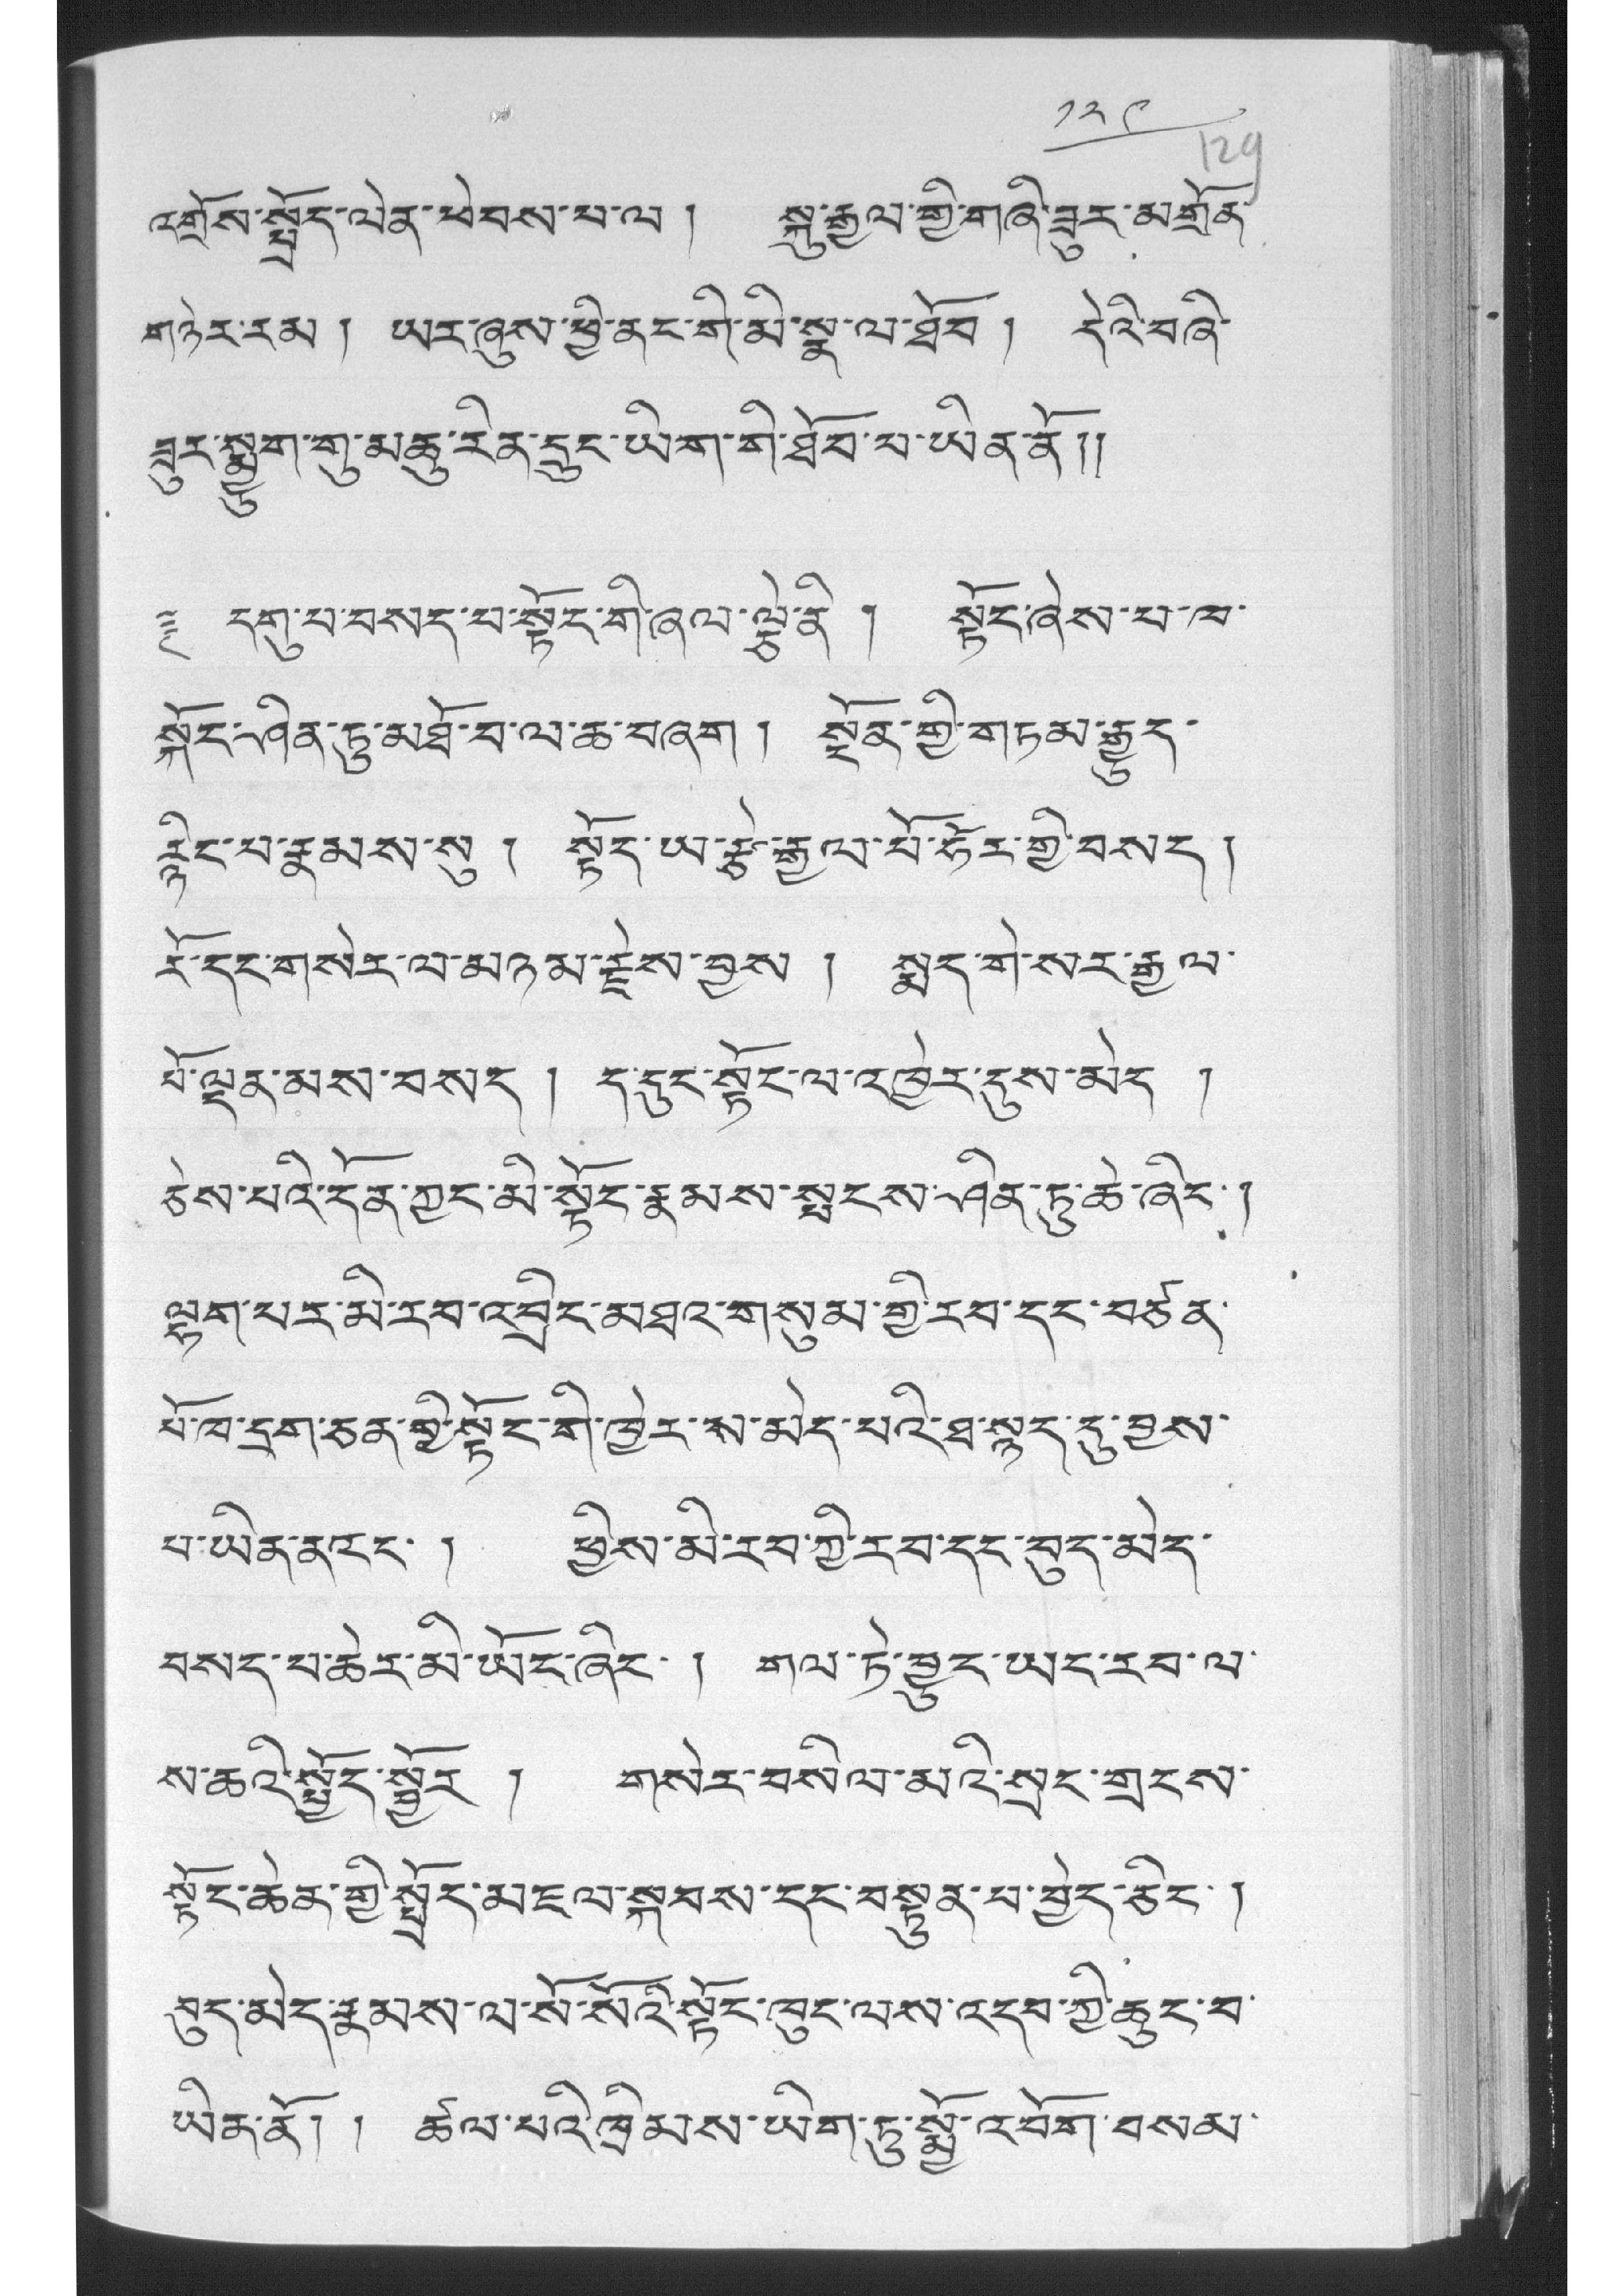༡༢༩
འགྲོས་སྤྲོད་ལེན་ཕེབས་པ་ལ ། སྐུ་རྒྱལ་གྱི་གཞི་ཟུར་མགྲོན་
གཉེར་རམ ། ཡར་ཞུས་ཕྱི་ནང་གི་མི་སྣ་ལ་ཐོབ ། དེའི་བཞི་
ཟུར་སྨྱུག་གུ་མཆུ་རིན་དྲུང་ཡིག་གི་ཐོབ་པ་ཡིན་ནོ།།
༈ དགུ་པ་བསད་པ་སྟོང་གི་ཞལ་ལྕེ་ནི ། སྟོང་ཞེས་པ་ཁ་
སྐོང་ཤིན་ཏུ་མཐོ་བ་ལ་ཆ་བཞག ། སྔོན་གྱི་གཏམ་རྒྱུད་
རྙིང་པ་རྣམས་སུ ། སྟོད་ཡ་རྩ་རྒྱལ་པོ་ཧོར་གྱི་བསད །
རོ་དང་གསེར་ལ་མཉམ་རྗེས་བྱས ། སྨད་གེ་སར་རྒྱལ་
པོ་ལྡན་མས་བསད ། ད་དུང་སྟོང་ལ་འཁྱེར་དུས་མེད །
ཅེས་པའི་དོན་ཀྱང་མི་སྟོང་རྣམས་སྤངས་ཤིན་ཏུ་ཆེ་ཞིང་།
ལྷག་པར་མི་རབ་འབྲིང་མཐའ་གསུམ་གྱི་རབ་དང་བཙན་
པོ་ཁ་དྲག་ཅན་གྱི་སྟོང་གི་ཁྱེར་ས་མེད་པའི་ཐ་སྙད་དུ་བྱས་
པ་ཡིན་ནའང་ ། ཕྱིས་མི་རབ་ཀྱི་རབ་དང་བུད་མེད་
བསད་པ་ཆེར་མེ་ཡོང་ཞིང་ ། གལ་ཏེ་བྱུང་ཡང་རབ་ལ་
ས་ཆའི་སྤྱོད་སྦྱོར ། གསེར་བསིལ་མའི་སྲང་གྲངས་
སྟོང་ཆེན་གྱི་སྤྲོད་མཇལ་སྐབས་དང་བསྟུན་པ་བྱེད་ཅིང་ །
བུད་མེད་རྣམས་ལ་སོ་སོའི་སྟོང་ཁུང་ལས་འདབ་ཀྱི་ཆུང་བ་
ཡིན་ནོ། ། ཚལ་པའི་ཁྲིམས་ཡིག་ཏུ་སྨྱོ་འབོག་བསམ་
